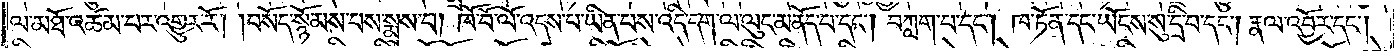ལ་མཐོ་འཚམ་པར་འགྱུར་རོ། །བསོད་སྙོམས་པས་སྨྲས་པ། ཁོ་བོ་ལོ་འདས་པ་ཡིན་པས་འདི་དག་ལ་ལུང་མནོད་པ་དང༌། བཀླག་པ་དང༌། ཁ་ཏོན་དང་ཡོངས་སུ་དྲི་བ་དང༌། རྣལ་འབྱོར་དང༌།
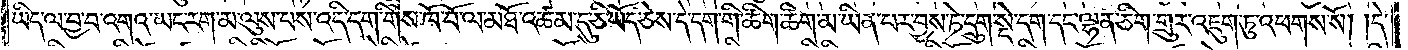ཡིད་ལ་བྱ་བ་འགའ་ཡང་རག་མ་ལུས་པས་འདི་དག་གིས་ཁོ་བོ་ལ་མཐོ་འཚམ་དུ་ཅི་ཡོད་ཅེས་དེ་དག་གི་ཚིག་ཚིག་མ་ཡིན་པར་བྱས་ཏེ་དྲུག་སྡེ་དག་དང་ལྷན་ཅིག་གྲུར་འཇུག་ཏུ་འཕགས་སོ། །དེ་
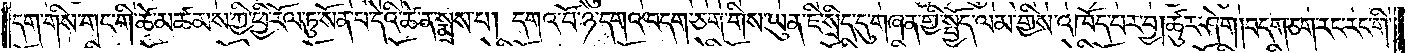དག་གིས་གང་གི་ཚེ་མཚམས་ཀྱི་ཕྱི་རོལ་ཏུ་སོན་པ་དེའི་ཚེ་ན་སྨྲས་པ། དགའ་བོ་ཉེ་དགའ་བདག་ཅག་གིས་ཡུན་ཇི་སྲིད་དུ་གཞན་གྱི་སྤྱོད་ལམ་གྱིས་འཁོད་པར་བྱ། ཚུར་ཤེག །བདག་ཅག་རང་རང་གི་
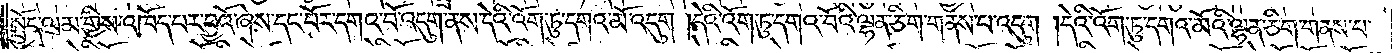སྤྱོད་ལམ་གྱིས་འཁོད་པར་བྱའོ་ཞེས་དང་པོར་དགའ་བོ་འདུག་ནས་དེའི་འོག་ཏུ་དགའ་མོ་འདུག །དེའི་འོག་ཏུ་དགའ་བོའི་ལྷན་ཅིག་གནས་པ་འདུག །དེའི་འོག་ཏུ་དགའ་མོའི་ལྷན་ཅིག་གནས་པ་
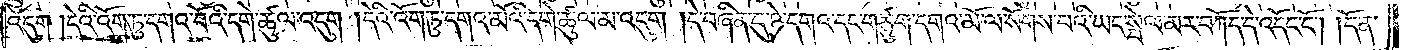འདུག། །དེའི་འོག་ཏུ་དགའ་བོའི་དགེ་ཚུལ་འདུག །དེའི་འོག་ཏུ་དགའ་མོའི་དགེ་ཚུལ་མ་འདུག །དེ་བཞིན་དུ་ཉེ་དགའ་དང་གཙུག་དགའ་མོ་ལ་སོགས་པའི་ཡང་སྤེལ་མར་བཀོད་དེ་འདོང་ངོ༌། །དོན་
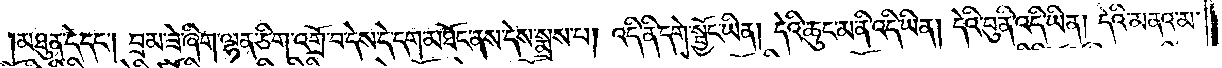མཐུན་དེ་དང༌། བྲམ་ཟེ་ཞིག་ལྷན་ཅིག་འགྲོ་བ་དེས་དེ་དག་མཐོང་ནས་དེས་སྨྲས་པ། འདི་ནི་དགེ་སྦྱོང་ཡིན། དེའི་ཆུང་མ་ནི་འདི་ཡིན། དེའི་བུ་ནི་འདི་ཡིན། དེའི་མནའ་མ་
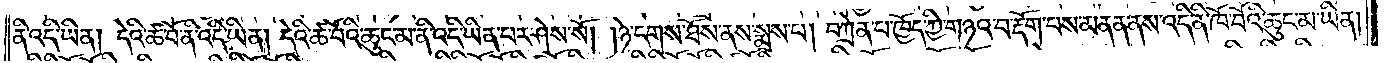ནི་འདི་ཡིན། དེའི་ཚ་བོ་ནི་འདི་ཡིན། དེའི་ཚ་བོའི་ཆུང་མ་ནི་འདི་ཡིན་པར་ཤེས་སོ། །ཉེ་དགས་ཐོས་ནས་སྨྲས་པ། བཀྲེན་པ་ཁྱོད་ཀྱི་གཉའ་བ་རྡོག་པས་མནན་ནས་འདི་ནི་ཁོ་བོའི་ཆུང་མ་ཡིན།
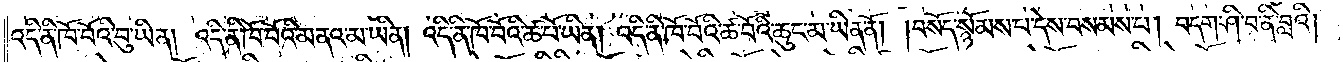འདི་ནི་ཁོ་བོའི་བུ་ཡིན། འདི་ནི་ཁོ་བོའི་མནའ་མ་ཡིན། འདི་ནི་ཁོ་བོའི་ཚ་བོ་ཡིན། འདི་ནི་ཁོ་བོའི་ཚ་བོའི་ཆུང་མ་ཡིན་ནོ། །བསོད་སྙོམས་པ་དེས་བསམས་པ། བདག་ཤི་བ་ནི་བླའི།
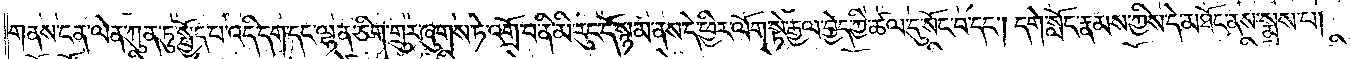གནས་ངན་ལེན་ཀུན་ཏུ་སྤྱོད་པ་འདི་དག་དང་ལྷན་ཅིག་གྲུར་ཞུགས་ཏེ་འགྲོ་བ་ནི་མི་རུང་དོ་སྙམ་ནས་དེ་ཕྱིར་ལོག་སྟེ་རྒྱལ་བྱེད་ཀྱི་ཚལ་དུ་སོང་བ་དང༌། དགེ་སློང་རྣམས་ཀྱིས་དེ་མཐོང་ནས་སྨྲས་པ།
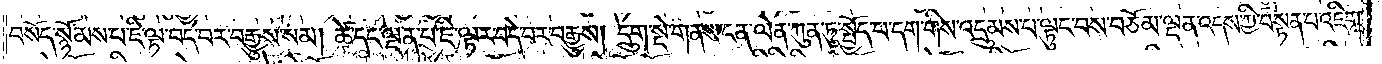བསོད་སྙོམས་པ་ཇི་ལྟ་བདེ་བར་བརྒྱུས་སམ། ཚེ་དང་ལྡན་པ་ཇི་ལྟར་བདེ་བར་བརྒྱུས། དྲུག་སྡེ་གནས་ངན་ལེན་ཀུན་ཏུ་སྤྱོད་པ་དག་གིས་འདྲུམས་པ་ལྟུང་བས་བཅོམ་ལྡན་འདས་ཀྱི་བསྟན་པ་འཇིག་
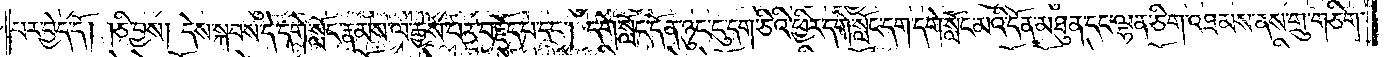པར་བྱེད་དོ། །ཅི་བྱས། དེས་སྐབས་དེ་དགེ་སློང་རྣམས་ལ་རྒྱས་པར་བརྗོད་པ་དང༌། དགེ་སློང་དོན་ཉུང་དུ་དག་ཅིའི་ཕྱིར་དགེ་སློང་དག་དགེ་སློང་མའི་དོན་མཐུན་དང་ལྷན་ཅིག་འཐམས་ནས་གྲུ་གཅིག་
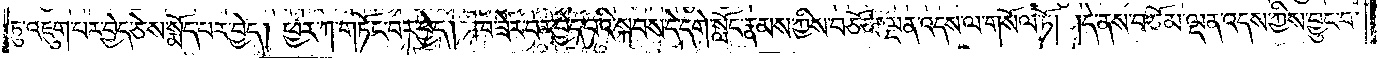ཏུ་འཇུག་པར་བྱེད་ཅེས་སྨོད་པར་བྱེད། ཕྱར་ཀ་གཏོང་བར་བྱེད། ཁ་ཟེར་བར་བྱེད་པའི་སྐབས་དེ་དགེ་སློང་རྣམས་ཀྱིས་བཅོམ་ལྡན་འདས་ལ་གསོལ་ཏོ། །དེ་ནས་བཅོམ་ལྡན་འདས་ཀྱིས་བྱུང་བ་
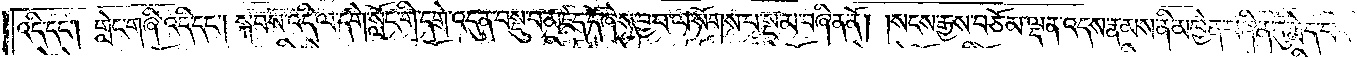འདི་དང༌། གླེང་གཞི་འདི་དང༌། སྐབས་འདི་ལ་དགེ་སློང་གི་དགེ་འདུན་བསྡུ་བ་མཛད་དོ་ཞེས་བྱ་བ་ལ་སོགས་པ་སྔ་མ་བཞིན་ནོ། །སངས་རྒྱས་བཅོམ་ལྡན་འདས་རྣམས་ནི་མཁྱེན་བཞིན་དུ་རྨེད་པར་
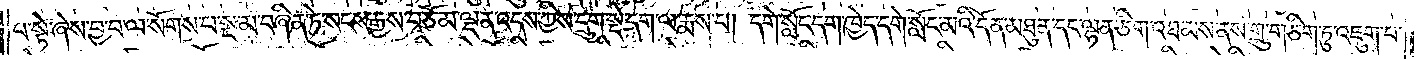པ་སྟེ་ཞེས་བྱ་བ་ལ་སོགས་པ་སྔ་མ་བཞིན་ཏེ་སངས་རྒྱས་བཅོམ་ལྡན་འདས་ཀྱིས་དྲུག་སྡེ་དག་ལ་རྨས་པ། དགེ་སློང་དག་ཁྱེད་དགེ་སློང་མའི་དོན་མཐུན་དང་ལྷན་ཅིག་འཐམས་ནས་གྲུ་གཅིག་ཏུ་འཇུག་པ་
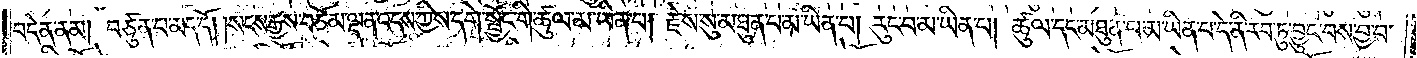བདེན་ནམ། བཙུན་པ་མད་དོ། །སངས་རྒྱས་བཅོམ་ལྡན་འདས་ཀྱིས་དགེ་སྦྱོང་གི་ཚུལ་མ་ཡིན་པ། རྗེས་སུ་མཐུན་པ་མ་ཡིན་པ། རུང་བ་མ་ཡིན་པ། ཚུལ་དང་མཐུན་པ་མ་ཡིན་པ་དེ་ནི་རབ་ཏུ་བྱུང་བས་བྱ་བ་
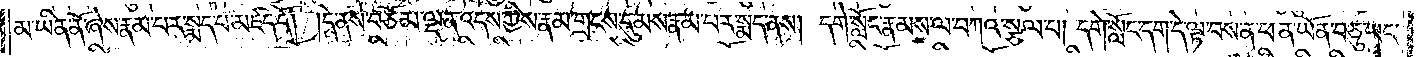མ་ཡིན་ནོ་ཞེས་རྣམ་པར་སྨད་པ་མཛད་དོ། །དེ་ནས་བཅོམ་ལྡན་འདས་ཀྱིས་རྣམ་གྲངས་དུ་མས་རྣམ་པར་སྨད་ནས། དགེ་སློང་རྣམས་ལ་བཀའ་སྩལ་པ། དགེ་སློང་དག་དེ་ལྟ་བས་ན་ཕན་ཡོན་བཅུ་ཡང་
